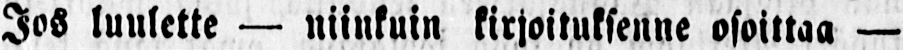Jos luulette — niinkuin kirjoituksenne osoittaa —
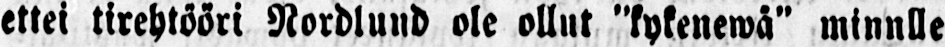ettei tirehtööri Nordlund ole ollut "kykenewä" minnlle
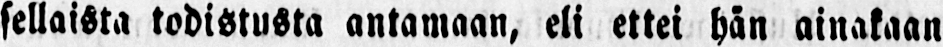sellaista todistusta antamaan, eli ettei hän ainakaan
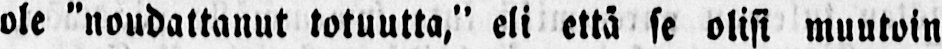ole "noudattanut totuutta," eli että se olisi muutoin
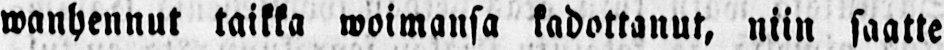wanhennut taikka woimansa kadottanut, niin saatte
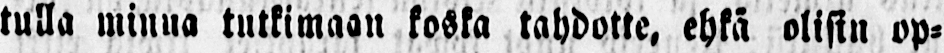tulla minua tutkimaan koska tahdotte, ehkä olisin op-
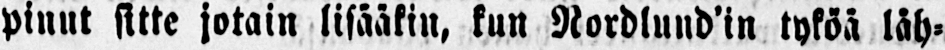pinut sitte jotain lisääkin, kun Nordlund’in tyköä läh-
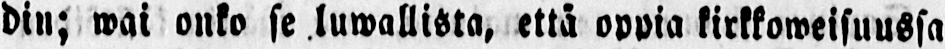din; wai onko se luwallista, että oppia kirkkoweisuussa
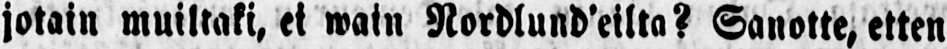jotain muiltaki, ei main Nordlund’eilta? Sanotte, etten
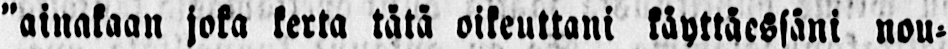"ainakaan joka kerta tätä oikeuttani käyttäessäni nou-
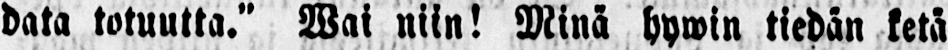data totuutta." Wai niin! Minä hywin tiedän ketä
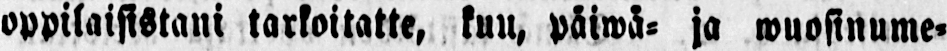oppilaisistani tarkoitatte, kun, päiwä- ja wuosinume-
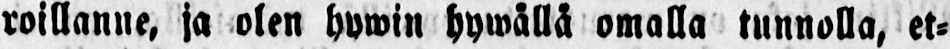roillanne, ja olen hywin hywällä omalla tunnolla, et-
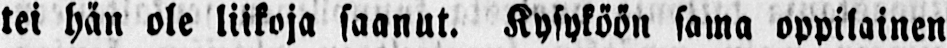tei hän ole liikoja saanut. Kysyköön sama oppilainen
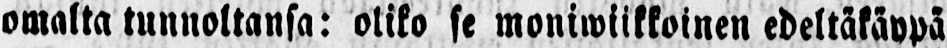omalla tunnoltansa: oliko se moniwiikkoinen edeltäkäypä
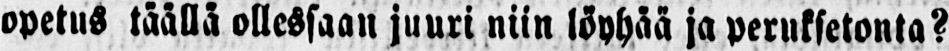opetus täällä ollessaan juuri niin löyhää ja peruksetonta?
